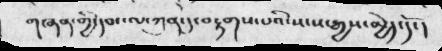གཞན་གྱི་དབང་ལ་ཀུན་དུ་བརྟགས་པའི་སངས་རྒྱས་མྱེད་དོ་།
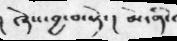། ཞེས་བྱ་བ་སྟེ་།  མེ་ནི་
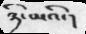ཉི་མའི་།
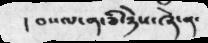།  བསལ་ན་ཅི་ཉེས་ཞེ་ན་
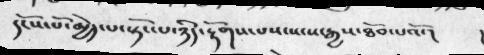དངོས་པོ་མྱེད་པ་སྟོང་པ་ཉིད་རྟོགས་པས་སངས་རྒྱས་ཐོབ་པའོ་།     །
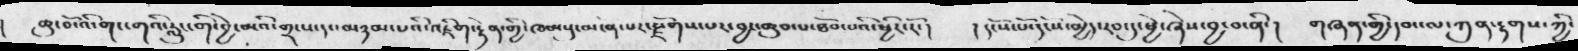། ཆུ་བོ་འི་གང་གའི་རླུང་གི་བྱེ་མའི་གྲངས་དང་མཉམ་པའི་འཇིག་རྟེན་གྱི་ཁམསུ་མངོན་པར་རྫོགས་པར་བྱང་ཆུབ་པ་ཐོབ་པའི་ཕྱིར་རོ་།  ། དངོས་པོ་དངོས་མྱེད་རབ་དུ་ཕྱེ་ཞེས་བྱ་བ་ནི་།  གཞན་གྱི་དབང་ལ་ཀུན་རྟགས་ཀྱི་
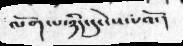ལོག་པ་ཉིད་དུ་ངེས་པའོ་།
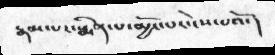རྣམ་པར་སྨིན་པ་མྱོང་པར་ངེས་པའོ་།
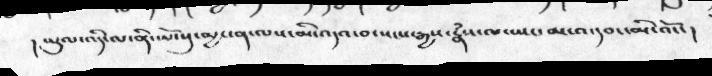།   ཡུལལ་འདི་ལ་ནི་ཡོངསུ་མྱ་ངན་ལས་མི་འདའ་བ་སངས་རྒྱས་རྣཾས་ལ་ཡང་མངའ་དབང་མི་འོང་།
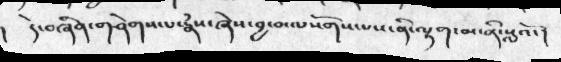།    དེ་བཞིན་གཤེགས་པ་རྣཾས་ཞེས་བྱ་བ་ལསོགས་པས་ནི་ལྷག་མ་ནི་སླའོ་ །
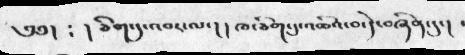༄༅།   ༴  ། ཅིག་དུ་འབར་ལ་།  ། ཁ་ཅིག་དུ་འཆིའ་བ་དེ་བཞིན་དུ་།
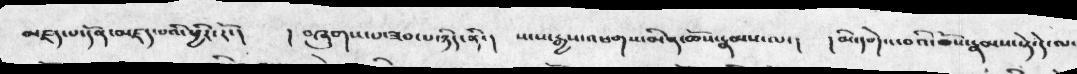མཛད་པ་དོན་མཛད་པའི་ཕྱིར་རོ་།   ། བཞུགས་པ་ཟབ་པ་ཉིད་ནི་།  སངས་རྒྱས་འཕགས་མིན་ཆོས་རྣམས་ལ་།  ། མི་དགེའ་བའི་ཆོས་རྣམས་སྟེ་དེ་ལ་
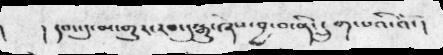།      དབང་དུ་མ་གྱུར་རབ་དུ་རྒྱུ་ཞེས་བྱ་བ་ནི་དྲུག་པའི་འོ་ །
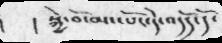།      སྐྱེ་བོ་མང་པོར་དེ་འདོད་དོ་
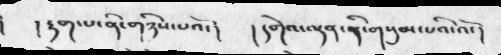། རྟག་པ་ནི་གཉིས་པའོ་།  ། དགེའ་ལྡན་ནི་གསུམ་པའི་འོ་།
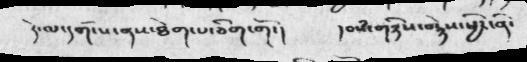དེ་ལ་དགོངས་ནས་ཐེག་པ་ཅིག་གོ་།    ། བསཾ་གཉིས་བརྙེས་ཕྱིར་ནི་
